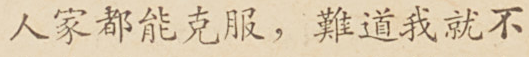人家都能克服，難道我就不
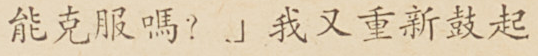能克服嗎？」我又重新鼓起
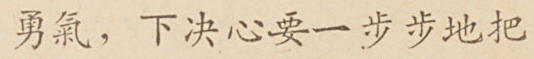勇氣，下決心要一步步地把
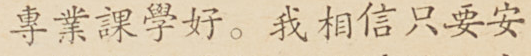專業課學好。我相信只要安
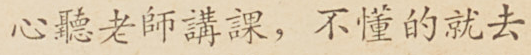心聽老師講課，不懂的就去
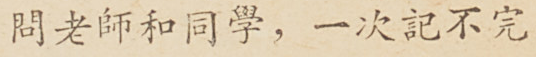問老師和同學，一次記不完
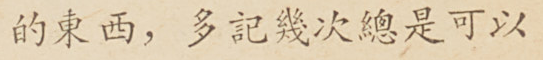的東西，多記幾次總是可以
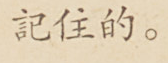記住的。
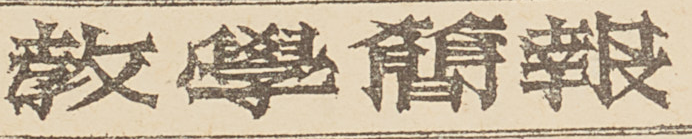教學簡報
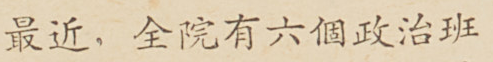最近，全院有六個政治班
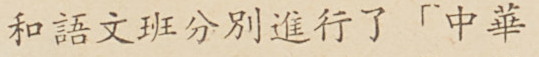和語文班分別進行了「中華
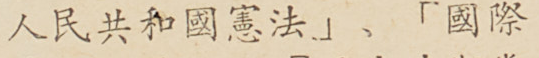人民共和國希憲法」、「國際
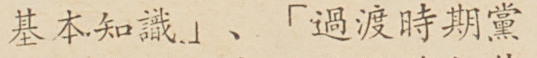基本知識」、「過渡時期黨
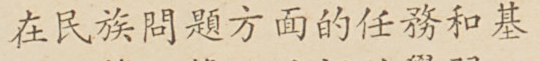在民族問題方面的任務和基
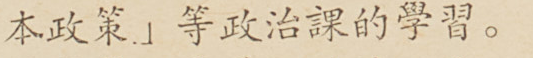本政策」等政治課的學習。
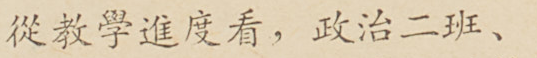從教學進度看，政治二班、
